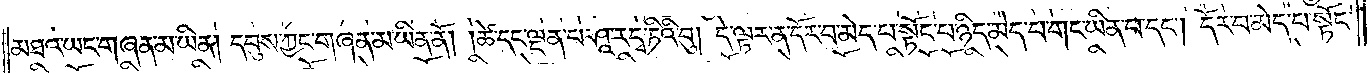མཐའ་ཡང་གཞན་མ་ཡིན། དབུས་ཀྱང་གཞན་མ་ཡིན་ནོ། །ཚེ་དང་ལྡན་པ་ཤཱ་རདྭ་ཏིའི་བུ། དེ་ལྟར་ན་དོར་བ་མེད་པ་སྟོང་པ་ཉིད་མེད་པ་གང་ཡིན་པ་དང༌། དོར་བ་མེད་པ་སྟོང་
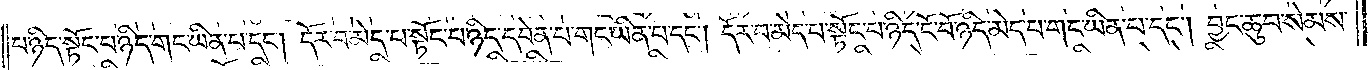པ་ཉིད་སྟོང་པ་ཉིད་གང་ཡིན་པ་དང༌། དོར་བ་མེད་པ་སྟོང་པ་ཉིད་དབེན་པ་གང་ཡིན་པ་དང༌། དོར་བ་མེད་པ་སྟོང་པ་ཉིད་ངོ་བོ་ཉིད་མེད་པ་གང་ཡིན་པ་དང༌། བྱང་ཆུབ་སེམས་
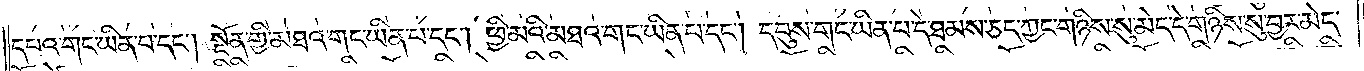དཔའ་གང་ཡིན་པ་དང༌། སྔོན་གྱི་མཐའ་གང་ཡིན་པ་དང༌། ཕྱི་མའི་མཐའ་གང་ཡིན་པ་དང༌། དབུས་གང་ཡིན་པ་དེ་ཐམས་ཅད་ཀྱང་གཉིས་སུ་མེད་དེ་གཉིས་སུ་བྱར་མེད་
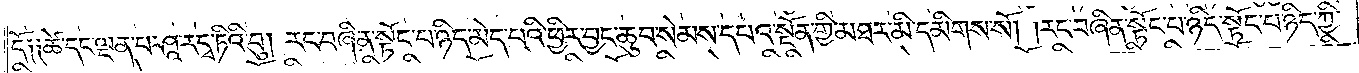དོ༑ ༑ཚེ་དང་ལྡན་པ་ཤཱ་ར་དྭ་ཏིའི་བུ། རང་བཞིན་སྟོང་པ་ཉིད་མེད་པའི་ཕྱིར་བྱང་ཆུབ་སེམས་དཔའ་སྔོན་གྱི་མཐར་མི་དམིགས་སོ། །རང་བཞིན་སྟོང་པ་ཉིད་སྟོང་པ་ཉིད་ཀྱི་
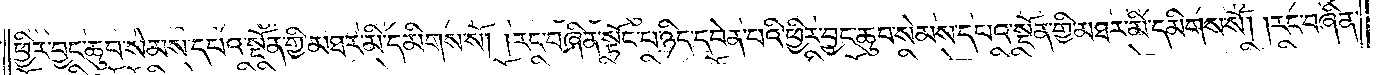ཕྱིར་བྱང་ཆུབ་སེམས་དཔའ་སྔོན་གྱི་མཐར་མི་དམིགས་སོ། །རང་བཞིན་སྟོང་པ་ཉིད་དབེན་པའི་ཕྱིར་བྱང་ཆུབ་སེམས་དཔའ་སྔོན་གྱི་མཐར་མི་དམིགས་སོ། །རང་བཞིན་
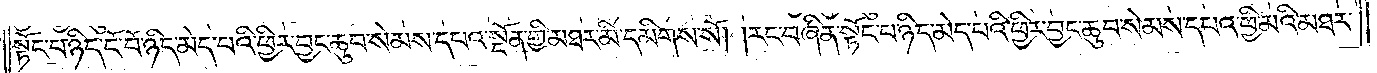སྟོང་པ་ཉིད་ངོ་བོ་ཉིད་མེད་པའི་ཕྱིར་བྱང་ཆུབ་སེམས་དཔའ་སྔོན་གྱི་མཐར་མི་དམིགས་སོ། །རང་བཞིན་སྟོང་པ་ཉིད་མེད་པའི་ཕྱིར་བྱང་ཆུབ་སེམས་དཔའ་ཕྱི་མའི་མཐར་
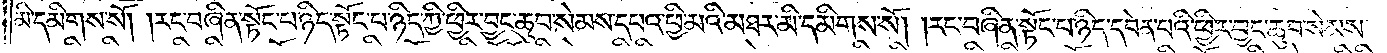མི་དམིགས་སོ། །རང་བཞིན་སྟོང་པ་ཉིད་སྟོང་པ་ཉིད་ཀྱི་ཕྱིར་བྱང་ཆུབ་སེམས་དཔའ་ཕྱི་མའི་མཐར་མི་དམིགས་སོ། །རང་བཞིན་སྟོང་པ་ཉིད་དབེན་པའི་ཕྱིར་བྱང་ཆུབ་སེམས་
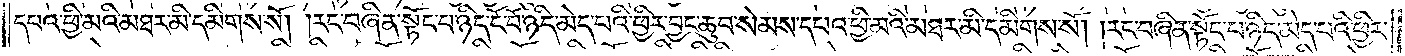དཔའ་ཕྱི་མའི་མཐར་མི་དམིགས་སོ། །རང་བཞིན་སྟོང་པ་ཉིད་ངོ་བོ་ཉིད་མེད་པའི་ཕྱིར་བྱང་ཆུབ་སེམས་དཔའ་ཕྱི་མའི་མཐར་མི་དམིགས་སོ། །རང་བཞིན་སྟོང་པ་ཉིད་མེད་པའི་ཕྱིར་
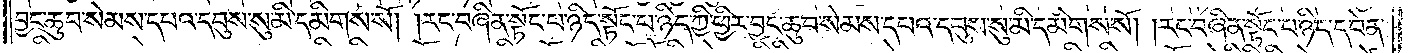བྱང་ཆུབ་སེམས་དཔའ་དབུས་སུ་མི་དམིགས་སོ། །རང་བཞིན་སྟོང་པ་ཉིད་སྟོང་པ་ཉིད་ཀྱི་ཕྱིར་བྱང་ཆུབ་སེམས་དཔའ་དབུས་སུ་མི་དམིགས་སོ། །རང་བཞིན་སྟོང་པ་ཉིད་དབེན་
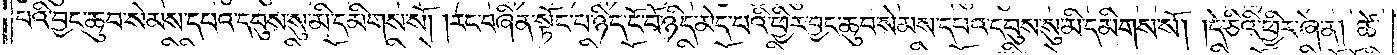པའི་བྱང་ཆུབ་སེམས་དཔའ་དབུས་སུ་མི་དམིགས་སོ། །རང་བཞིན་སྟོང་པ་ཉིད་ངོ་བོ་ཉིད་མེད་པའི་ཕྱིར་བྱང་ཆུབ་སེམས་དཔའ་དབུས་སུ་མི་དམིགས་སོ། །དེ་ཅིའི་ཕྱིར་ཞེ་ན། ཚེ་
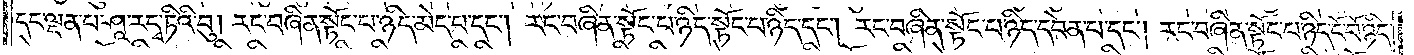དང་ལྡན་པ་ཤཱ་རདྭ་ཏིའི་བུ། རང་བཞིན་སྟོང་པ་ཉིད་མེད་པ་དང༌། རང་བཞིན་སྟོང་པ་ཉིད་སྟོང་པ་ཉིད་དང༌། རང་བཞིན་སྟོང་པ་ཉིད་དབེན་པ་དང༌། རང་བཞིན་སྟོང་པ་ཉིད་ངོ་བོ་ཉིད་
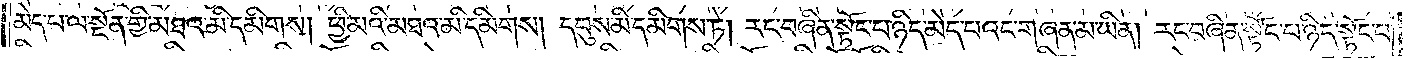མེད་པ་ལ་སྔོན་གྱི་མཐའ་མི་དམིགས། ཕྱི་མའི་མཐའ་མི་དམིགས། དབུས་མི་དམིགས་ཏེ། རང་བཞིན་སྟོང་པ་ཉིད་མེད་པའང་གཞན་མ་ཡིན། རང་བཞིན་སྟོང་པ་ཉིད་སྟོང་པ་
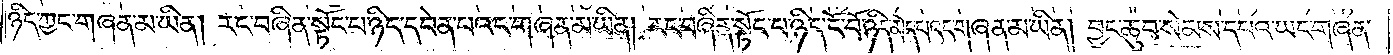ཉིད་ཀྱང་གཞན་མ་ཡིན། རང་བཞིན་སྟོང་པ་ཉིད་དབེན་པའང་གཞན་མ་ཡིན། རང་བཞིན་སྟོང་པ་ཉིད་ངོ་བོ་ཉིད་མེད་པའང་གཞན་མ་ཡིན། བྱང་ཆུབ་སེམས་དཔའ་ཡང་གཞན་
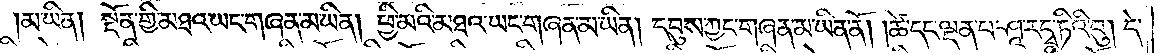མ་ཡིན། སྔོན་གྱི་མཐའ་ཡང་གཞན་མ་ཡིན། ཕྱི་མའི་མཐའ་ཡང་གཞན་མ་ཡིན། དབུས་ཀྱང་གཞན་མ་ཡིན། །ཚེ་དང་ལྡན་པ་ཤཱ་རདྭ་ཏིའི་བུ། དེ་
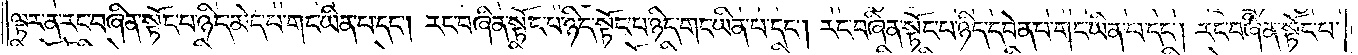ལྟར་ན་རང་བཞིན་སྟོང་པ་ཉིད་མེད་པ་གང་ཡིན་པ་དང༌། རང་བཞིན་སྟོང་པ་ཉིད་སྟོང་པ་ཉིད་གང་ཡིན་པ་དང༌། རང་བཞིན་སྟོང་པ་ཉིད་དབེན་པ་གང་ཡིན་པ་དང༌། རང་བཞིན་སྟོང་པ་
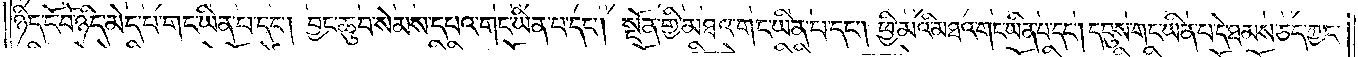ཉིད་ངོ་བོ་ཉིད་མེད་པ་གང་ཡིན་པ་དང༌། བྱང་ཆུབ་སེམས་དཔའ་གང་ཡིན་པ་དང༌། སྔོན་གྱི་མཐའ་གང་ཡིན་པ་དང༌། ཕྱི་མའི་མཐའ་གང་ཡིན་པ་དང༌། དབུས་གང་ཡིན་པ་དེ་ཐམས་ཅད་ཀྱང་
